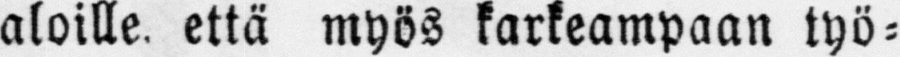aloille, että myös karkeampaan työ-
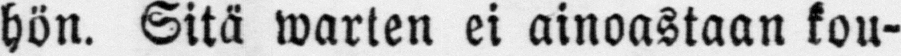hön. Sitä warten ei ainoastaan kou-
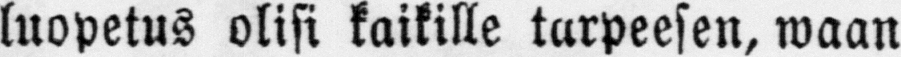luopetus olisi kaikille tarpeesen, waan
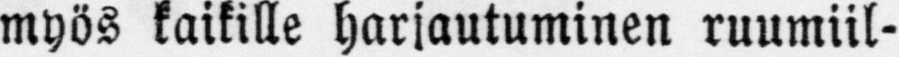myös kaikille harjautuminen ruumiil-
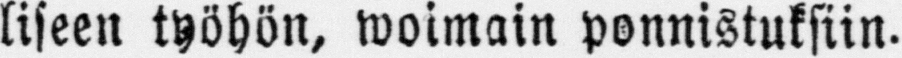liseen työhön, woimain ponnistuksiin.
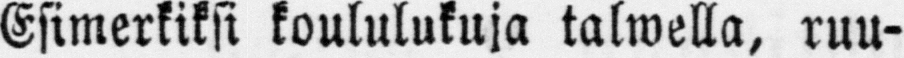Esimerkiksi koululukuja talwella, ruu-
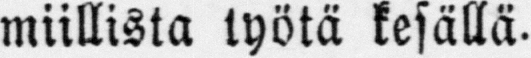miillista työtä kesällä.
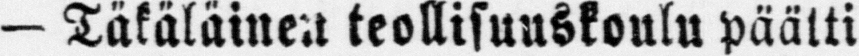— Täkäläinen teollisuuskoulu päätti
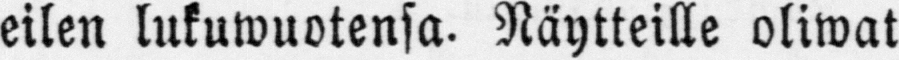eilen lukuwuotensa. Näytteille oliwat
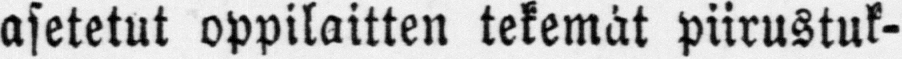asetetut oppilaitten tekemät piirustuk-
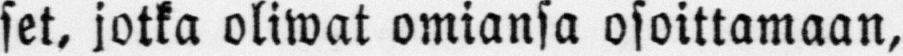set, jotka oliwat omiansa osoittamaan,
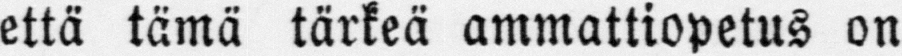että tämä tärkeä ammattiopetus on
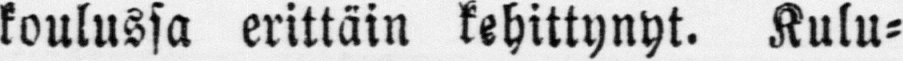koulussa erittäin kehittynyt. Kulu-
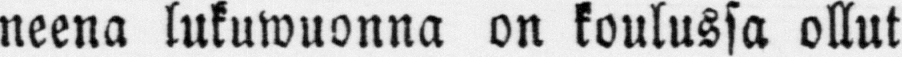neena lukuwuonna on koulussa ollut
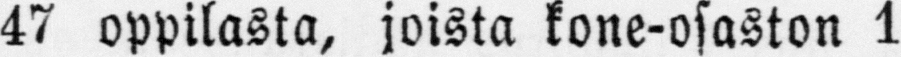47 oppilasta, joista kone-osaston 1
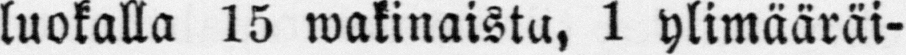luokalla 15 wakinaista, 1 ylimääräi-
